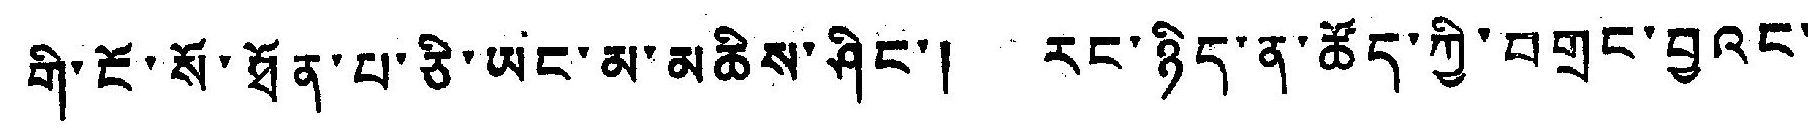གི་ངོ་སོ་ཐོན་པ་ཅི་ཡང་མ་མཆིས་ཤིང་། རང་ཉིད་ན་ཚོད་ཀྱི་བགྲང་བྱའང་
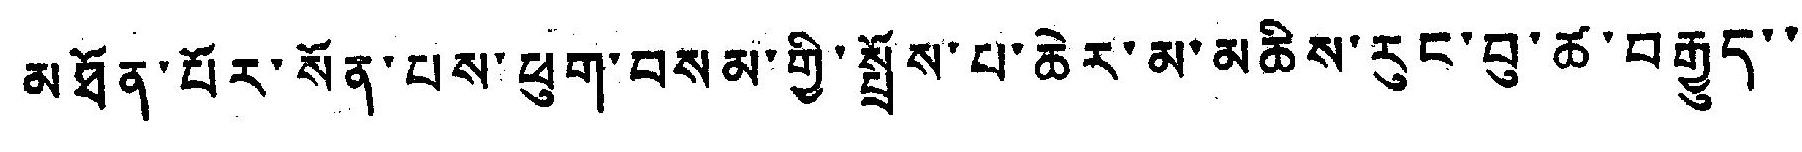མཐོན་པོར་སོན་པས་ཕུག་བསམ་གྱི་སྤྲོས་པ་ཆེར་མ་མཆིས་རུང་བུ་ཚ་བརྒྱུད་་
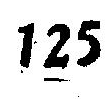125
